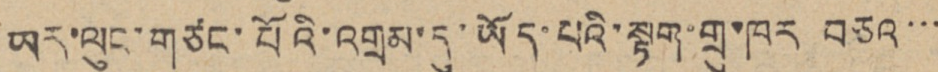ཡར་ལུང་གཙང་པོའི་འགྲམ་དུ་ཡོད་པའི་སྟག་གྲུ་ཁར བཅའ་་་
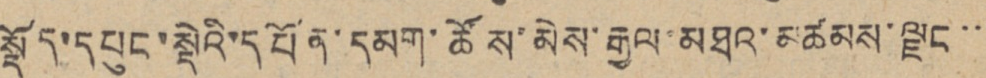སྡོད་དཔུང་སྡེའི་དཔོན་དམག་ཚོས་མེས་རྒྱལ་མཐའ་མཚམས་ལྗང་་་
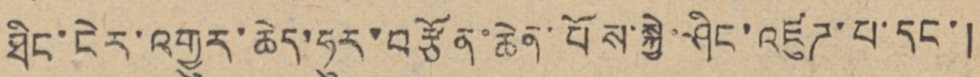ཐིང་ངེར་འགྱུར་ཆེད་ཧུར་བརྩོན་ཆེན་པོས་སྐྱེ་ཤིང་འཛུཊ་པ་དང་།
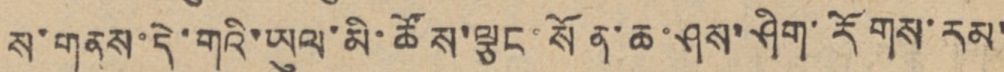ས་གནས་དེ་གའི་ཡུལ་མི་ཚོས་ལྕང་སོན་ཆ་ཤས་ཤིག་རོགས་རམ་
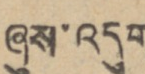ཞུས་འདུག
